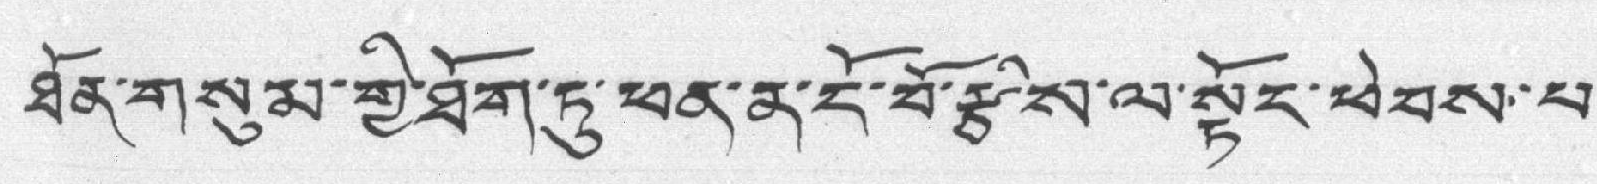ཐོན་གསུམ་གྱི་ཐོག་ཏུ་ཕན་ན་ངོ་བོ་རྩིས་ལ་སྟོང་ཕེབས་པ་
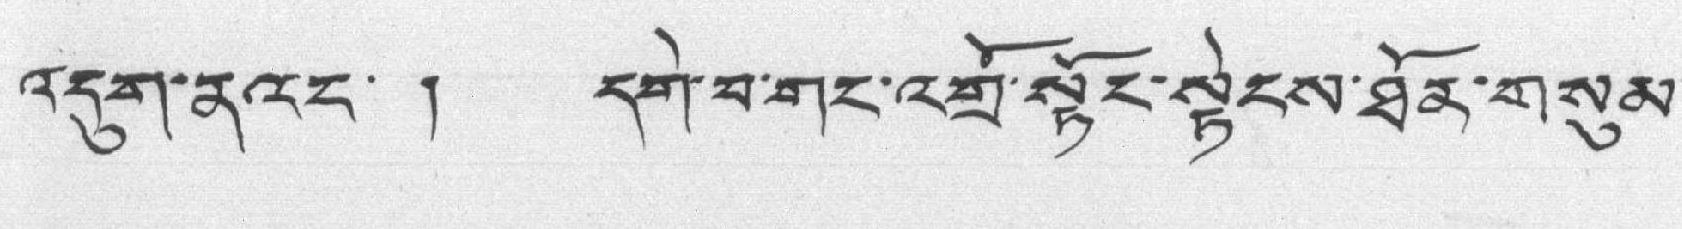འདུག་ན་འང་ ། དགེ་བ་གང་འགྲོ་སྟོང་སྟེངས་ཐོན་གསུམ་
